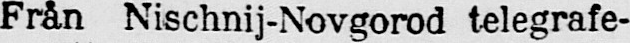Från Nischnij-Novgorod telegrafe-
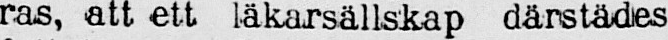ras, att ett läkarsällskap därstädes
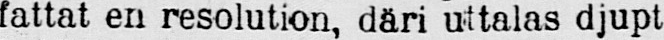fattat en resolution, däri uttalas djupt
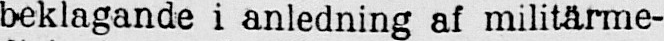beklagande i anledning af militärme-
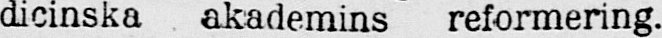dicinska akademins reformering.
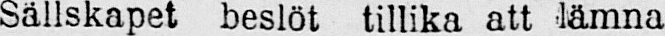Sällskapet beslöt tillika att lämna
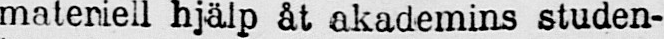materiell hjälp åt akademins studen-
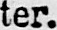ter.
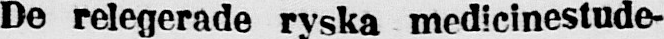De relegerade ryska medicinestude-
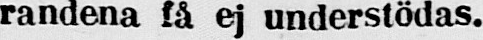randena få ej understödas.
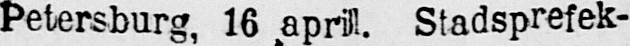Petersburg, 16 april. Stadsprefek-
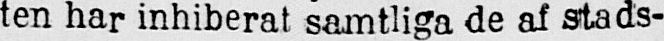ten har inhiberat samtliga de af stads-
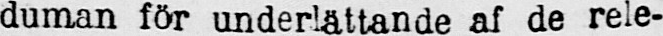duman för underlättande af de rele-
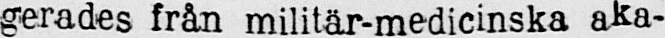gerades från militär-medicinska aka-
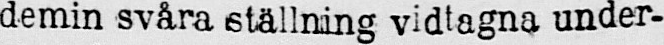demin svåra ställning vidtagna under-
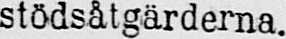stödsåtgärderna.
